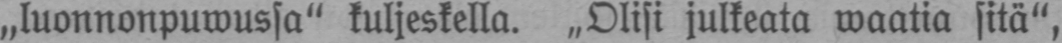„luonnonpuwussa" kuljeskella. „Olisi julkeata waatia sitä",
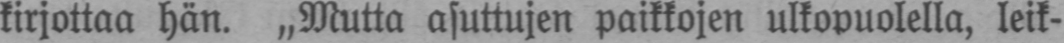kirjottaa hän. „Mutta asuttujen paikkojen ulkopuolella, leik-
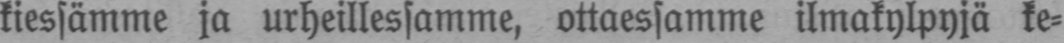kiessämme ja urheillessamme, ottaessamme ilmakylpyjä ke-
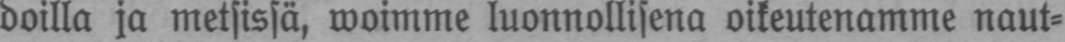doilla ja metsissä, woimme luonnollisena oikeutenamme naut-
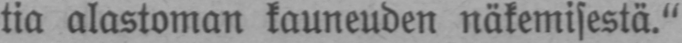tia alastoman kauneuden näkemisestä."
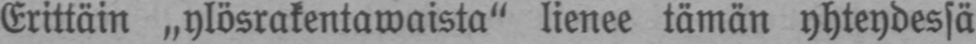Erittäin „ylösrakentawaista" lienee tämän yhteydessä
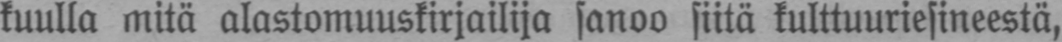kuulla mitä alastomuuskirjailija sanoo siitä kulttuuriesineestä,
